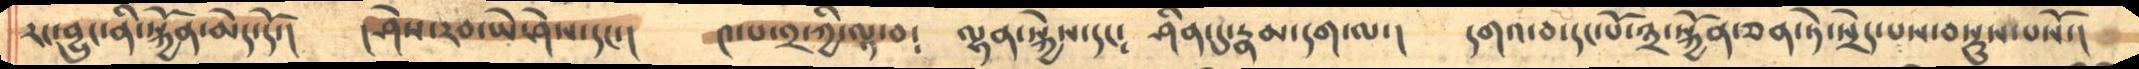རང་བྱུང་ནི་སྐྱོན་མེད་དོ་།   །ཤེས་རབ་ཡེ་ཤེས་དང་།   ༤་པ་༢་ཀྱི་ལྟ་བ༴  ལྷན་སྐྱེས་དང༴  ཤིན་དུ་རྣམ་དག་ལ་།   དགའ་བ་དང་པོ་༣་སྐྱོན་ཅན་ཏེ་སྲེད་པས་བསྡུས་པསོ་།
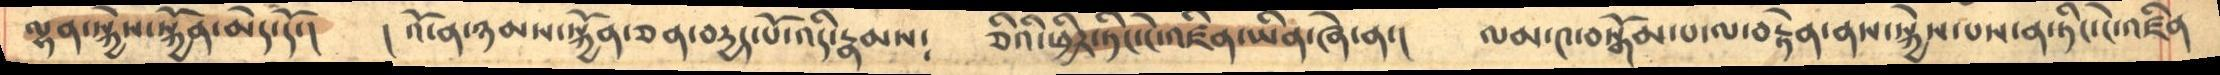ལྷན་སྐྱེས་སྐྱོན་མེད་དོ་།   །འོ་ན་ཉམས་སྐྱོན་ཅན་བདྱད་པོ་འདི་རྣམས༴   ཅིའི་ཕྱིར་ཏིང་ངེ་འཛིན་ཡིན་ཞེ་ན་།   ལམ་༤་བསྒོམ་པ་ལ་བརྟེན་ནས་སྐྱེས་པས་ན་ཏིང་ངེ་འཛིན
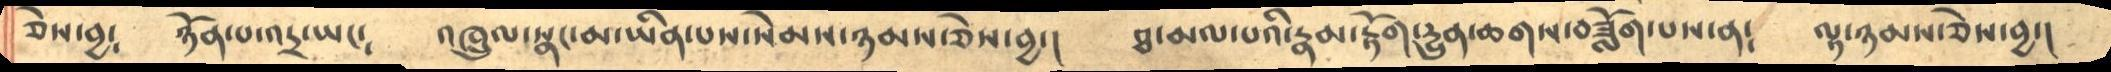ཅེས་བྱ༴   ཉོན་པ་འདྲ་ཡང༴   འཁྲུལ་སྣང་མ་ཡིན་པས་སེམས་ཉམས་ཅེས་བྱ་།   ཐ་མལ་པའི་རྣམ་རྟོག་དྱུན་ཆགས་བཟློག་པས་ན༴    ལྟ་ཉམས་ཅེས་བྱ་།
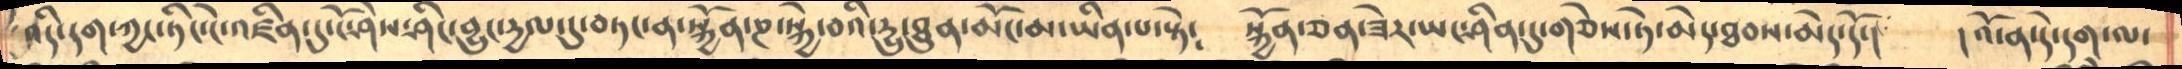འདི་དག་ཀྱང་ཏིང་ངེ་འཛིན་དུ་ངོ་ཤེས་ཤིང་བྱུང་རྒྱལ་དུ་བཏང་ན་སྐྱོན་ཎ་སྐྱེ་བའི་རྒྱུ་ཐུན་མོང་མ་ཡིན་པ་སྟེ༴   སྐྱོན་ཅན་ཟེར་ཡང་ཤིན་དུ་གཅེས་ཏེ་མེད་ཐབས་མེད་དོ་།   །འོ་ན་དེ་དག་ལ་
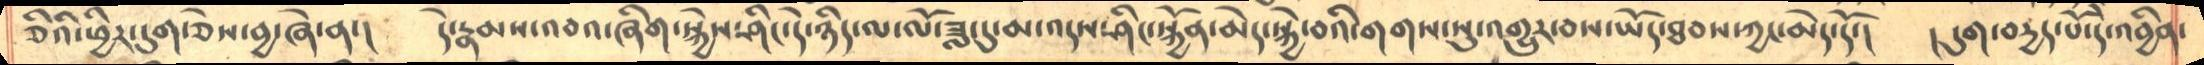ཅིའི་ཕྱིར་དུག་ཅེས་བྱ་ཞེ་ན་།   དེ་རྣམས་འབའ་ཞིག་སྐྱེས་ཤིང་དེ་ཉིད་ལ་ལོ་ཟླ་དུ་མ་འདས་ཤིང་སྐྱོན་མེད་སྐྱེ་བའི་གགས་སུ་འགྱུར་བས་ཡོད་ཐབས་ཀྱང་མེད་དོ་།   །དུག་བདྱད་པོ་དེ་འབྱིན་
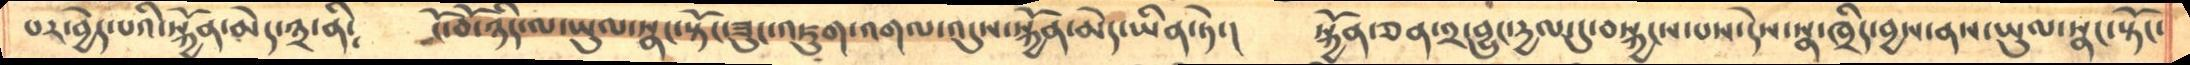པར་བྱེད་པའི་སྐྱོད་མེད་ཉྲ་ནི༴   ངོ་བོ་ཉིད་ལ་ཡུལ་སྣང་སྟོང་ཟུང་འཇུག་འགལ་འདུས་སྐྱོན་མེད་ཡིན་ཏེ་།    སྐྱོན་ཅན་༢་བྱུང་རྒྱལ་དུ་བསྐྱངས་པས་དེས་སྣ་ཁྲིད་བྱས་ནས་ཡུལ་སྣང་སྟོང་
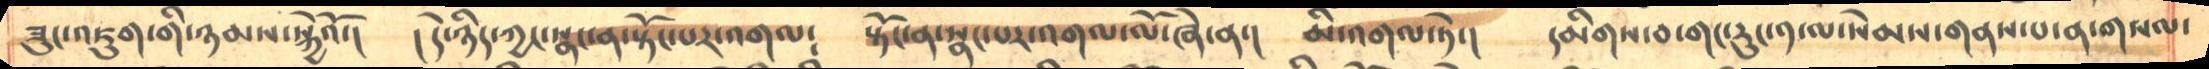ཟུང་འཇུག་གི་ཉམས་སྐྱེའོ་།   །དེ་ཉིད་ཀྱང་སྣང་ན་སྟོང་པར་འགལ༴   སྟོང་ན་སྣང་པར་འགལ་ལོ་ཞེ་ན་།  མི་འགལ་ཏེ་།   དམིགས་བ་གང་རུང་༡་ལ་སེམས་གནས་པ་ན་གསལ་
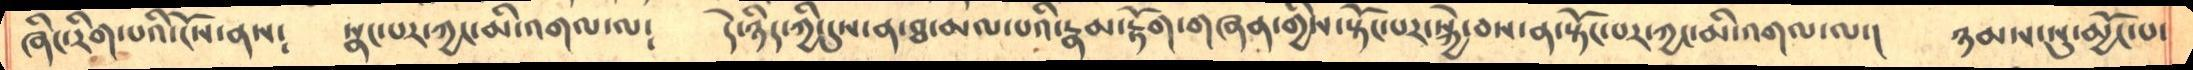ཞིང་རིག་པའི་ངོས་ནས༴   སྣང་པར་ཀྱང་མི་འགལ་ལ༴   དེ་ཉིད་ཀྱི་དུས་ན་ཐ་མལ་པའི་རྣམ་རྟོག་གཞན་གྱིས་སྟོང་པར་སྐྱེ་བས་ན་སྟོང་པར་ཀྱང་མི་འགལ་ལ་།  ཉམས་སུ་མྱོང་པ་
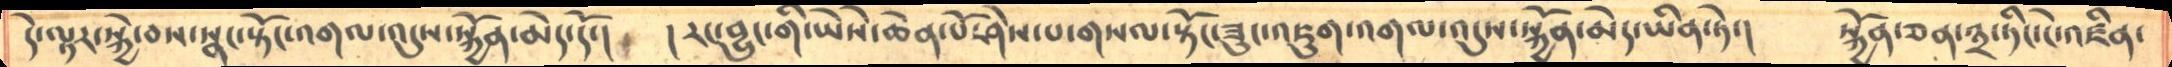དེ་ལྟར་སྐྱེ་བས་སྣང་སྟོང་འགལ་འདུས་སྐྱོན་མེད་དོ་།   །རང་བྱུང་གི་ཡེསེ་ཆེན་པོ་ཤེས་པ་གསལ་སྟོང་ཟུང་འཇུག་འགལ་འདུས་སྐྱོན་མེད་ཡིན་ཏེ་།  སྐྱོན་ཅན་༣་ཏིང་ངེ་འཛིན་
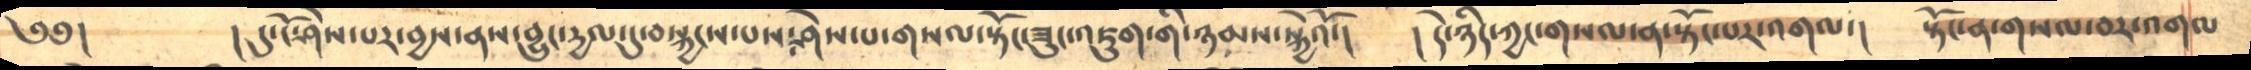༄༅།      །དུ་ངོ་ཤེས་པར་བྱས་ནས་བྱུང་དྱལ་དུ་བསྐྱངས་པས་ཤེས་པ་གསལ་སྟོང་ཟུང་འཇུག་གི་ཉམས་སྐྱེའོ་།    །དེ་ཉིད་ཀྱང་གསལ་ན་སྟོང་པར་འགལ་།  སྟོང་ན་གསལ་བར་འགལ
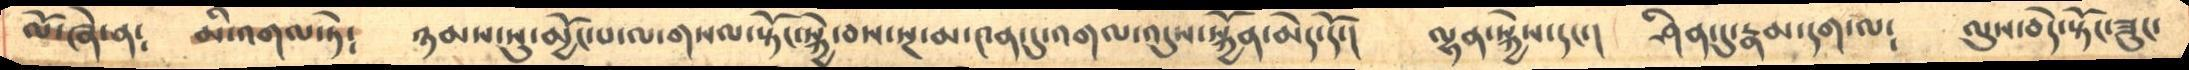ལོ་ཞེ་ན༴   མི་འགལ་ཏེ༴   ཉམས་སུ་མྱོང་པ་ལ་གསལ་སྟོང་སྐྱེ་བས་སྔ་མ་༤ན་དུ་འགལ་འདུས་སྐྱོན་མེད་དོ་།   ལྷན་སྐྱེས་དང་།   ཤིན་དུ་རྣམ་དག་ལ༴   ལུས་བདེ་སྟོང་ཟུང་
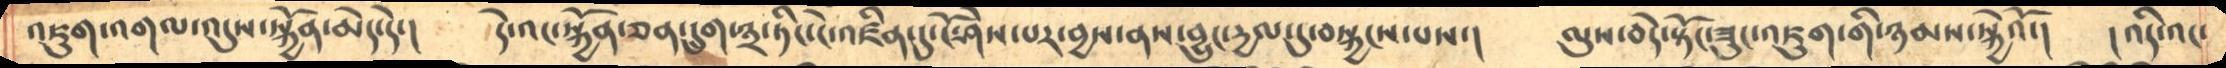འཇུག་འགལ་འདུས་སྐྱོན་མེད་དེ་།   དེ་འང་སྐྱོན་ཅན་དྲུག་༣་ཏིང་ངེ་འཛིན་དུ་ངོ་ཤེས་པར་བྱས་ནས་བྱུང་དྱལ་དུ་བསྐྱངས་པས་།   ལུས་བདེ་སྟོང་ཟུང་འཇུག་གི་ཉམས་སྐྱེའོ་།   །འདི་འང་
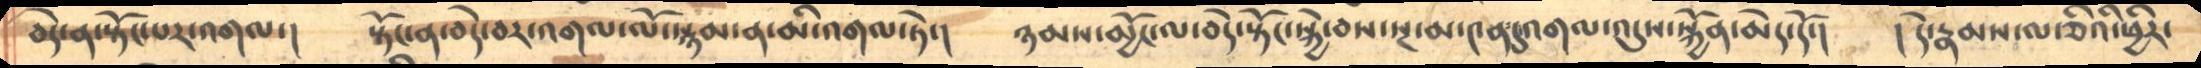བདེ་ན་སྟོང་པར་འགལ་།   སྟོང་ན་བདེ་བར་འགལ་ལོ་སྙམ་ན་མི་འགལ་ཏེ་།    ཉམས་མྱོང་ལ་བདེ་སྟོང་སྐྱེ་བས་སྔ་མ་༤ན་དུ་འགལ་འདུས་སྐྱོན་མེད་དོ་།    །དེ་རྣམས་ལ་ཅིའི་ཕྱིར་
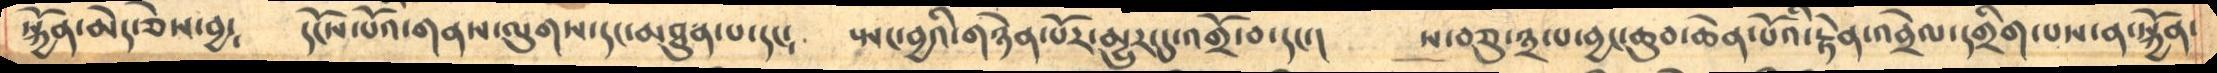སྐྱོན་མེད་ཅེས་བྱ༴   དངོས་པོའི་གནས་ལུགས་དང་མཐུན་པ་དང༴    སྤང་བྱའི་གཉེན་པོར་མྱུར་དུ་འགྲོ་བ་དང་།   ས་བཅུ་༣་པ་བྱང་ཆུབ་ཆེན་པོའི་རྟེན་འབྲེལ་དགྲིག་པས་ན་སྐྱོན་
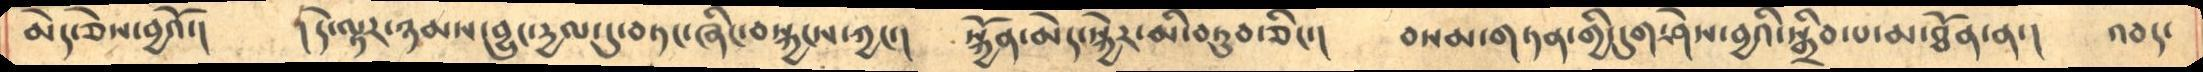མེད་ཅེས་བྱའོ་།     །དེ་ལྟར་ཉམས་བྱུང་དྱལ་དུ་བཏང་ཞིང་བསྐྱངས་ཀྱང་།   སྐྱོན་མེད་སྐྱེར་མི་བཏུབ་ཅིང་།    བསམ་གཏན་གྱི་དུག་ཤེས་བྱའི་སྒྲིབ་པ་མ་ཐོན་ན་།    འབད་
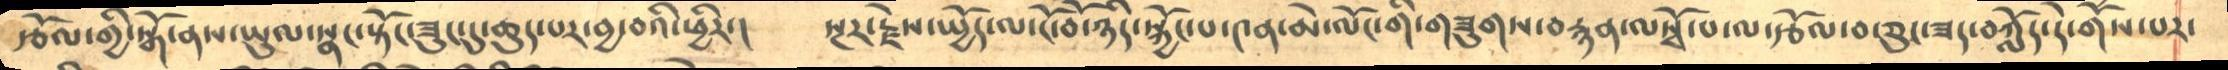རྩོལ་གྱི་སྒོ་ནས་ཡུལ་སྣང་སྟོང་ཟུང་དུ་ཆུད་པར་བྱ་བའི་ཕྱིར་།    སྔར་རྗེས་སྤྱོད་ལ་ངོ་བོ་ཉིད་སྐྱོང་པ་༤ན་མེ་ལོང་གི་གཟུགས་བརྙན་ལསྭོ་པ་ལ་རྩོལ་བ་ཅུང་ཟད་བཀློད་དེ་གོས་པར་
